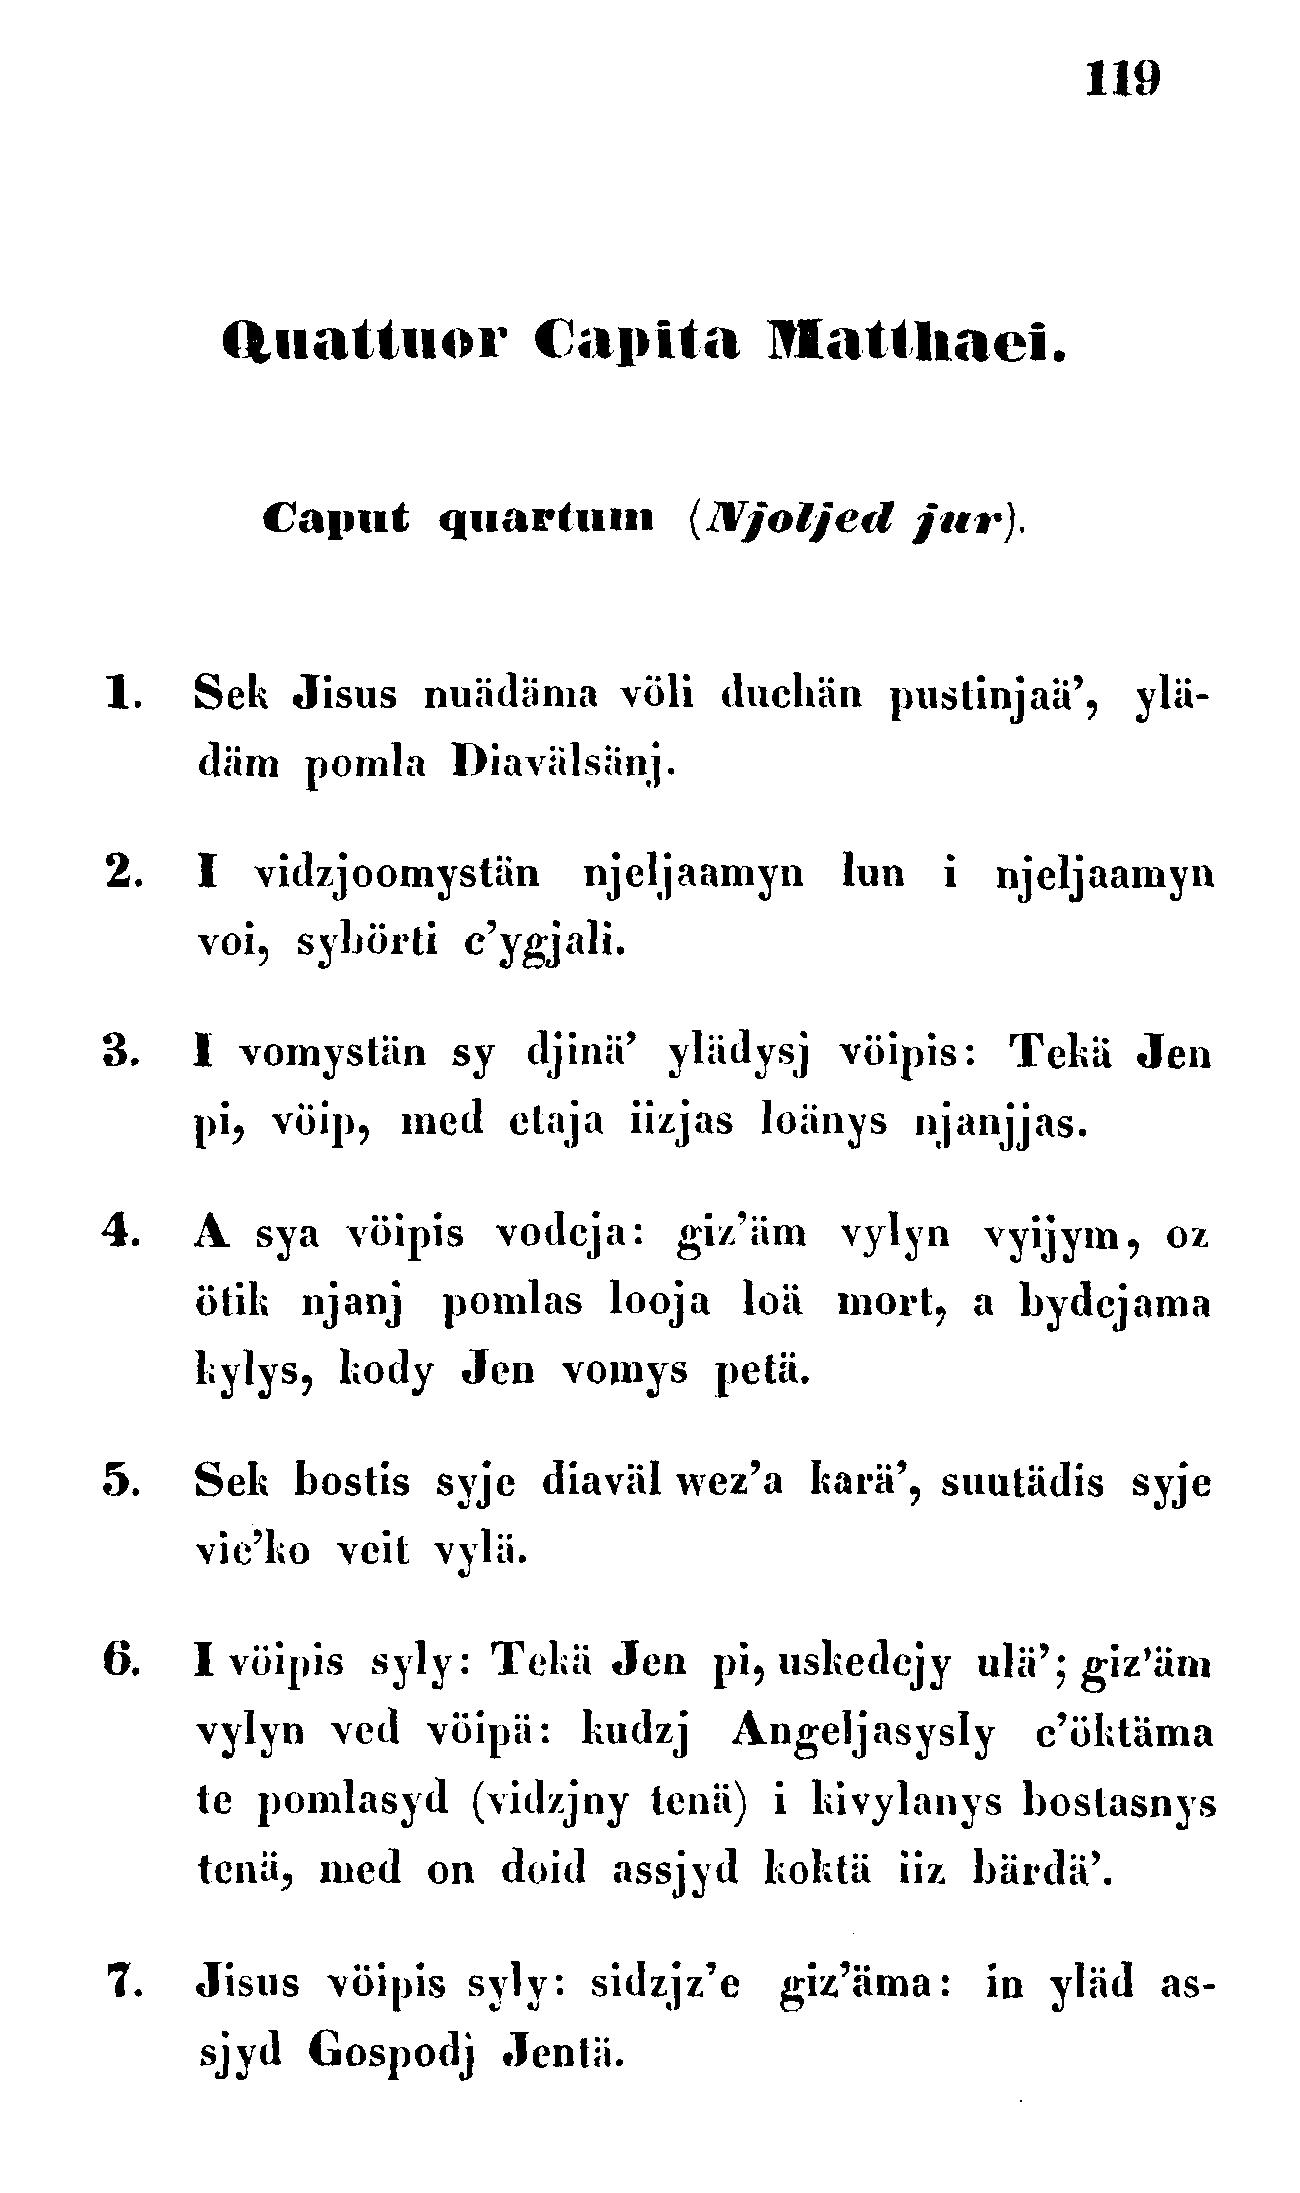119
Quattuor Capita Matthaei.
Caput quartum (Njoljed jur).
1. Sek Jisus nuädäma völi duchän pustinjaä', ylä-
däm pomla Diavälsänj.
2. I vidzjoomystän njeljaamyn lun i njeljaamyn
voi, sybörti c'ygjali.
3. I vomystän sy djinä' ylädysj vöipis: Tekä Jen
pi, vöip, med etaja iizjas loänys njanjjas.
4. A sya vöipis vodcja: giz'äm vylyn vyijym, oz
ötik njanj pomlas looja loä mort, a bydcjama
kylys, kody Jen vomys petä.
5. Sek bostis syje diaväl wez'a karä', suutädis syje
vic'ko veit vylä.
6. I vöipis syly: Tekä Jen pi, uskedejy ulä'; giz'äm
vylyn ved vöipä: kudzj Angeljasysly c'öktäma
te pomlasyd (vidzjny tenä) i kivylanys bostasnys
tenä, med on doid assjyd koktä iiz bärdä'.
7. Jisus vöipis syly: sidzjz'e giz'äma: in yläd as-
sjyd Gospodj Jentä.
